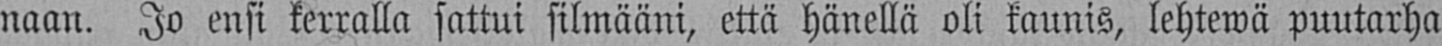naan. Jo ensi kerralla sattui silmääni, että hänellä oli kaunis, lehtewä puutarha
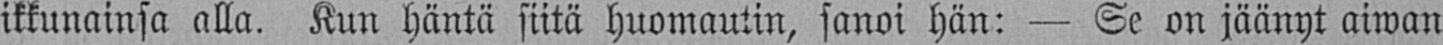ikkunainsa alla. Kun häntä siitä huomautin, sanoi hän: — Se on jäänyt aiwan
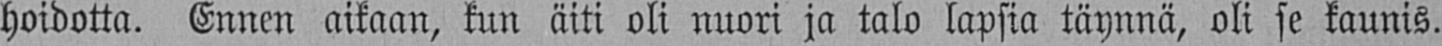hoidotta. Ennen aikaan, kun äiti oli nuori ja talo lapsia täynnä, oli se kaunis.
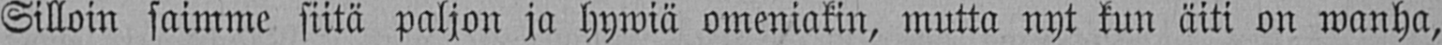Silloin saimme siitä paljon ja hywiä omeniakin, mutta nyt kun äiti on wanha,
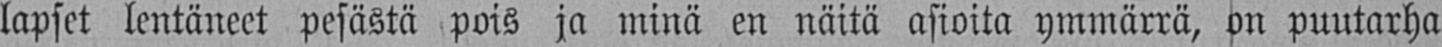lapset lentäneet pesästä pois ja minä en näitä asioita ymmärrä, on puutarha
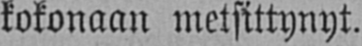kokonaan metsittynyt.
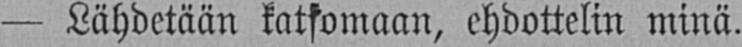— Lähdetään katsomaan, ehdottelin minä.
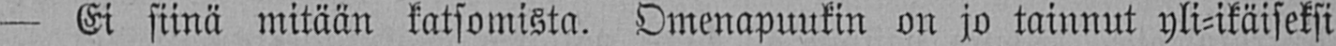— Ei siinä mitään katsomista. Omenapuukin on jo tainnut yli-ikäiseksi
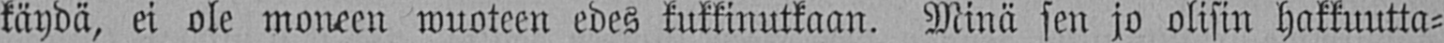käydä, ei ole moneen wuoteen edes kukkinutkaan. Minä sen jo olisin hakkuutta-
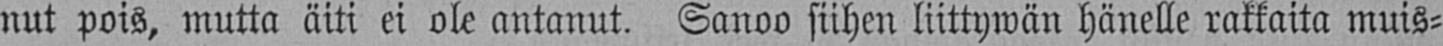nut pois, mutta äiti ei ole antanut. Sanoo siihen liittywän hänelle rakkaita muis-
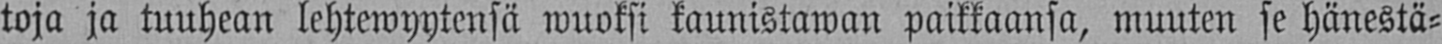toja ja tuuhean lehtewyytensä wuoksi kaunistawan paikkaansa, muuten se hänestä-
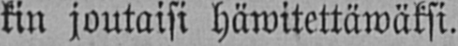kin joutaisi häwitettäwäksi.
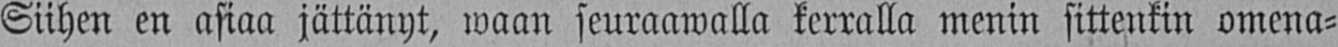Siihen en asiaa jättänyt, waan seuraawalla kerralla menin sittenkin omena-
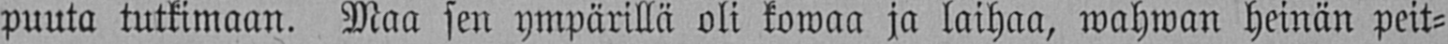puuta tutkimaan. Maa sen ympärillä oli kowaa ja laihaa, wahwan heinän peit-
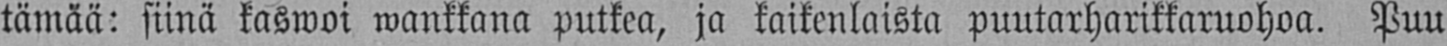tämää: siinä kaswoi wankkana putkea, ja kaikenlaista puutarharikkaruohoa. Puu
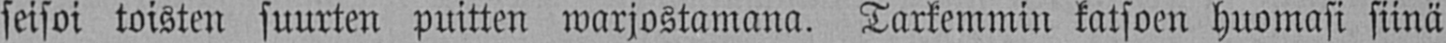seisoi toisten suurten puitten warjostamana. Tarkemmin katsoen huomasi siinä
